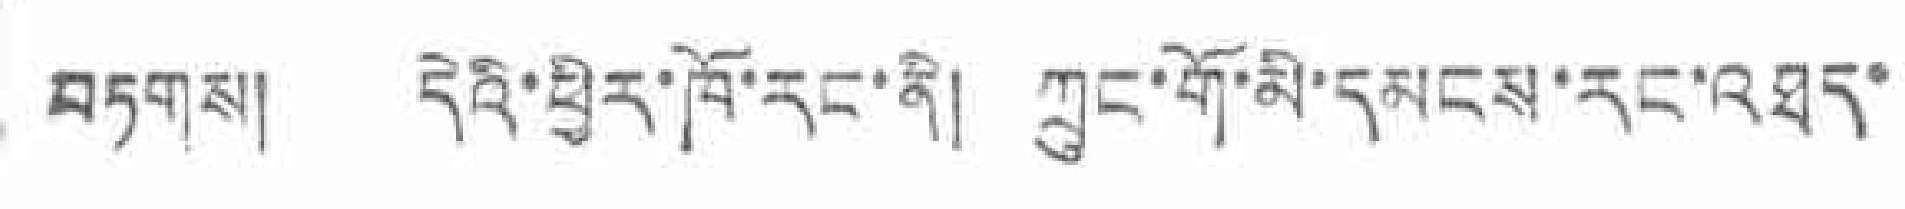བཏགས། དེའི་ཕྱིར་ཁོ་རང་ནི། ཀྲུང་གོ་མི་དམངས་རང་འཐད་
